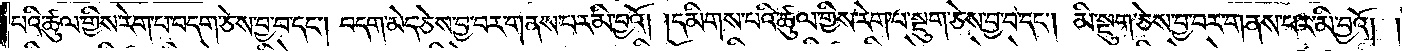པའི་ཚུལ་གྱིས་རེག་པ་བདག་ཅེས་བྱ་བ་དང༌། བདག་མེད་ཅེས་བྱ་བར་གནས་པར་མི་བྱའོ། །དམིགས་པའི་ཚུལ་གྱིས་རེག་པ་སྡུག་ཅེས་བྱ་བ་དང༌། མི་སྡུག་ཅེས་བྱ་བར་གནས་པར་མི་བྱའོ། །
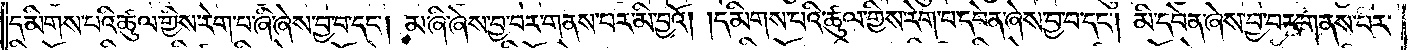དམིགས་པའི་ཚུལ་གྱིས་རེག་པ་ཞི་ཞེས་བྱ་བ་དང༌། མ་ཞི་ཞེས་བྱ་བར་གནས་པར་མི་བྱའོ། །དམིགས་པའི་ཚུལ་གྱིས་རེག་པ་དབེན་ཞེས་བྱ་བ་དང༌། མི་དབེན་ཞེས་བྱ་བར་གནས་པར་
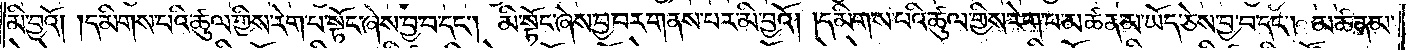མི་བྱའོ། །དམིགས་པའི་ཚུལ་གྱིས་རེག་པ་སྟོང་ཞེས་བྱ་བ་དང༌། མི་སྟོང་ཞེས་བྱ་བར་གནས་པར་མི་བྱའོ། །དམིགས་པའི་ཚུལ་གྱིས་རེག་པ་མཚན་མ་ཡོད་ཅེས་བྱ་བ་དང༌། མཚན་མ་
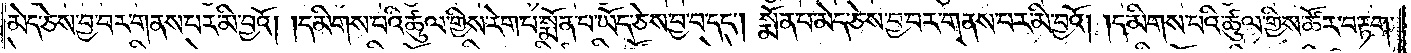མེད་ཅེས་བྱ་བར་གནས་པར་མི་བྱའོ། །དམིགས་པའི་ཚུལ་གྱིས་རེག་པ་སྨོན་པ་ཡོད་ཅེས་བྱ་བ་དང༌། སྨོན་པ་མེད་ཅེས་བྱ་བར་གནས་པར་མི་བྱའོ། །དམིགས་པའི་ཚུལ་གྱིས་ཚོར་བ་རྟག་
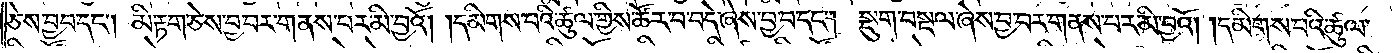ཅེས་བྱ་བ་དང༌། མི་རྟག་ཅེས་བྱ་བར་གནས་པར་མི་བྱའོ། །དམིགས་པའི་ཚུལ་གྱིས་ཚོར་བ་བདེ་ཞེས་བྱ་བ་དང༌། སྡུག་བསྔལ་ཞེས་བྱ་བར་གནས་པར་མི་བྱའོ། །དམིགས་པའི་ཚུལ་
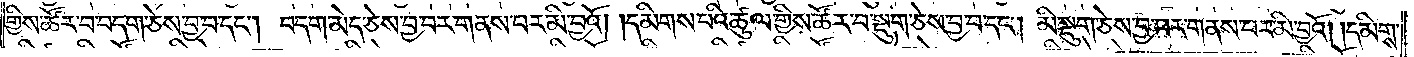གྱིས་ཚོར་བ་བདག་ཅེས་བྱ་བ་དང༌། བདག་མེད་ཅེས་བྱ་བར་གནས་པར་མི་བྱའོ། །དམིགས་པའི་ཚུལ་གྱིས་ཚོར་བ་སྡུག་ཅེས་བྱ་བ་དང༌། མི་སྡུག་ཅེས་བྱ་བར་གནས་པར་མི་བྱའོ། །དམིགས་
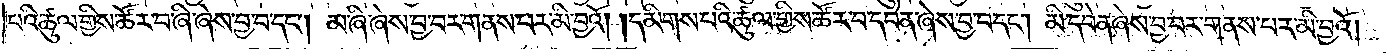པའི་ཚུལ་གྱིས་ཚོར་བ་ཞི་ཞེས་བྱ་བ་དང༌། མ་ཞི་ཞེས་བྱ་བར་གནས་པར་མི་བྱའོ། །དམིགས་པའི་ཚུལ་གྱིས་ཚོར་བ་དབེན་ཞེས་བྱ་བ་དང༌། མི་དབེན་ཞེས་བྱ་བར་གནས་པར་མི་བྱའོ། །
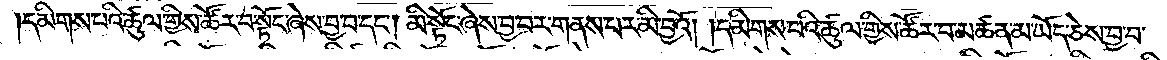དམིགས་པའི་ཚུལ་གྱིས་ཚོར་བ་སྟོང་ཞེས་བྱ་བ་དང༌། མི་སྟོང་ཞེས་བྱ་བར་གནས་པར་མི་བྱའོ། །དམིགས་པའི་ཚུལ་གྱིས། ཚོར་བ་མཚན་མ་ཡོད་ཅེས་བྱ་བ་
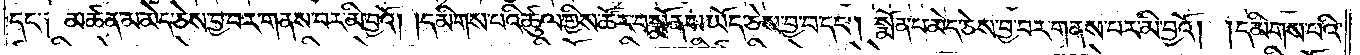དང༌༏ མཚན་མ་མེད་ཅེས་བྱ་བར་གནས་པར་མི་བྱའོ། །དམིགས་པའི་ཚུལ་གྱིས་ཚོར་བ་སྨོན་པ་ཡོད་ཅེས་བྱ་བ་དང༌། སྨོན་པ་མེད་ཅེས་བྱ་བར་གནས་པར་མི་བྱའོ། །དམིགས་པའི་
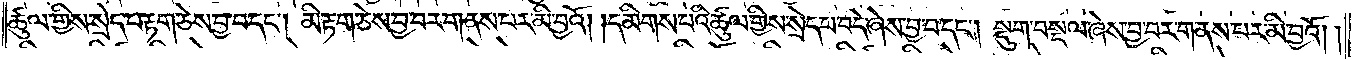ཚུལ་གྱིས་སྲེད་པ་རྟག་ཅེས་བྱ་བ་དང༌། མི་རྟག་ཅེས་བྱ་བར་གནས་པར་མི་བྱའོ། །དམིགས་པའི་ཚུལ་གྱིས་སྲེད་པ་བདེ་ཞེས་བྱ་བ་དང༌། སྡུག་བསྔལ་ཞེས་བྱ་བར་གནས་པར་མི་བྱའོ། །
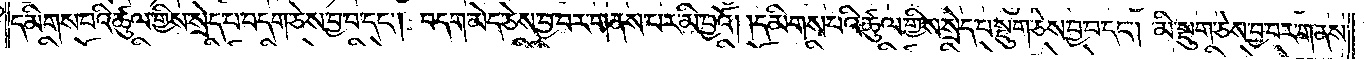དམིགས་པའི་ཚུལ་གྱིས་སྲེད་པ་བདག་ཅེས་བྱ་བ་དང༌། བདག་མེད་ཅེས་བྱ་བར་གནས་པར་མི་བྱའོ། །དམིགས་པའི་ཚུལ་གྱིས་སྲེད་པ་སྡུག་ཅེས་བྱ་བ་དང༌། མི་སྡུག་ཅེས་བྱ་བར་གནས་
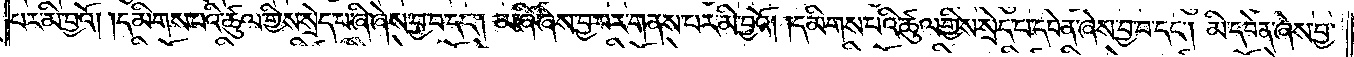པར་མི་བྱའོ། །དམིགས་པའི་ཚུལ་གྱིས་སྲེད་པ་ཞི་ཞེས་བྱ་བ་དང༌། མ་ཞི་ཞེས་བྱ་བར་གནས་པར་མི་བྱའོ། །དམིགས་པའི་ཚུལ་གྱིས་སྲེད་པ་དབེན་ཞེས་བྱ་བ་དང༌། མི་དབེན་ཞེས་བྱ་
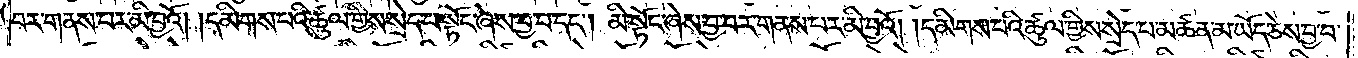བར་གནས་པར་མི་བྱའོ། །དམིགས་པའི་ཚུལ་གྱིས་སྲེད་པ་སྟོང་ཞེས་བྱ་བ་དང༌། མི་སྟོང་ཞེས་བྱ་བར་གནས་པར་མི་བྱའོ། །དམིགས་པའི་ཚུལ་གྱིས་སྲེད་པ་མཚན་མ་ཡོད་ཅེས་བྱ་བ་
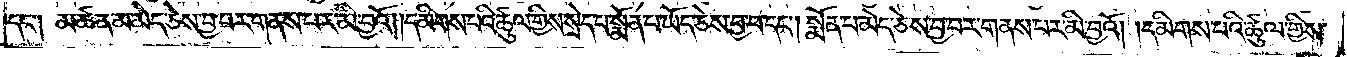དང༌༏ མཚན་མ་མེད་ཅེས་བྱ་བར་གནས་པར་མི་བྱའོ། །དམིགས་པའི་ཚུལ་གྱིས་སྲེད་པ་སྨོན་པ་ཡོད་ཅེས་བྱ་བ་དང༌། སྨོན་པ་མེད་ཅེས་བྱ་བར་གནས་པར་མི་བྱའོ། །དམིགས་པའི་ཚུལ་གྱིས་
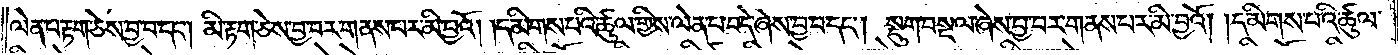ལེན་པ་རྟག་ཅེས་བྱ་བ་དང༌། མི་རྟག་ཅེས་བྱ་བར་གནས་པར་མི་བྱའོ། །དམིགས་པའི་ཚུལ་གྱིས་ལེན་པ་བདེ་ཞེས་བྱ་བ་དང༌། སྡུག་བསྔལ་ཞེས་བྱ་བར་གནས་པར་མི་བྱའོ། །དམིགས་པའི་ཚུལ་
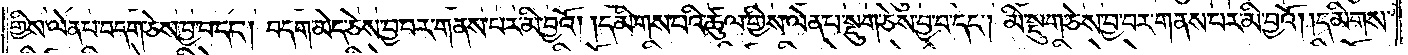གྱིས་ལེན་པ་བདག་ཅེས་བྱ་བ་དང༌། བདག་མེད་ཅེས་བྱ་བར་གནས་པར་མི་བྱའོ། །དམིགས་པའི་ཚུལ་གྱིས་ལེན་པ་སྡུག་ཅེས་བྱ་བ་དང༌། མི་སྡུག་ཅེས་བྱ་བར་གནས་པར་མི་བྱའོ། །དམིགས་
